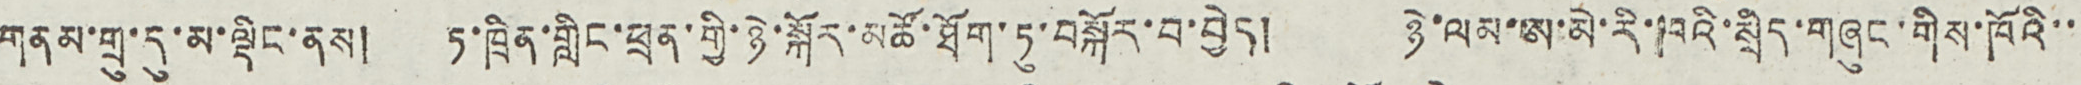གནས་གྲུ་དུ་མ་ལྡིང་ནས། ཏ་ཁྲིན་གླིང་ཕྲན་གྱི་ཉེ་སྐོར་མཚོ་ཐོག་དུ་བསྐོར་བ་བྱེད། ཉེ་ལམ་ཨ་མེ་རི་ཁའི་སྲིད་གཞུང་གིས་ཁོའི་་
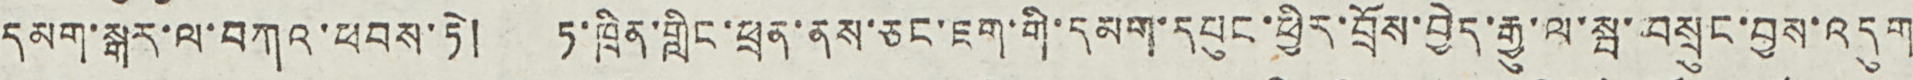དམག་སྒར་ལ་བཀའ་ཕབས་ཏེ། ཏ་ཁྲིན་གླིང་ཕྲན་ནས་ཅང་ཇག་གི་དམག་དཔུང་ཕྱིར་བྲོས་བྱེད་རྒྱུ་ལ་སྦ་བསྲུང་བྱས་འདུག
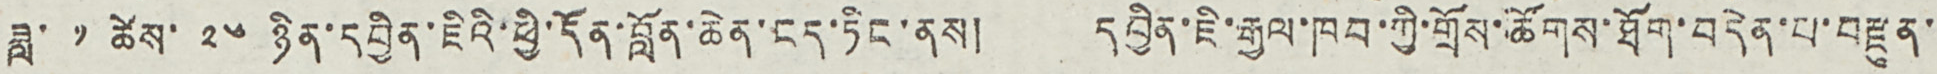ཟླ་ ༤ ཚེས་ ༢༦ ཉིན་དབྱིན་ཇིའི་ཕྱི་དོན་བློན་ཆེན་ངད་ཏིང་ནས། དབྱིན་ཇི་རྒྱལ་ཁབ་ཀྱི་གྲོས་ཚོགས་ཐོག་བདེན་པ་བརྫུན་
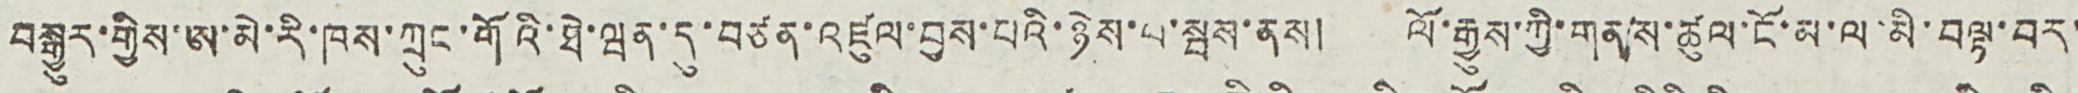བསྒྱུར་གྱིས་ཨ་མེ་རི་ཁས་ཀྲུང་གོའི་ཐེ་ཝན་དུ་བཙན་འཛུལ་བྱས་པའི་ཉེས་པ་སྦས་ནས། ལོ་རྒྱུས་ཀྱི་གནས་ཚུལ་ངོ་མ་ལ་མི་བལྟ་བར་
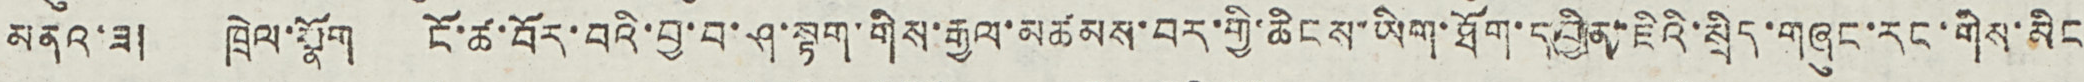མནའ་ཟ། ཁྲེལ་སྣོག ངོ་ཚ་བོར་བའི་བྱ་བ་ཤ་སྟག་གིས་རྒྱལ་མཚམས་བར་གྱི་ཆིངས་ཡིག་ཐོག་དབྱིན་ཇིའི་སྲིད་གཞུང་རང་གིས་མིང
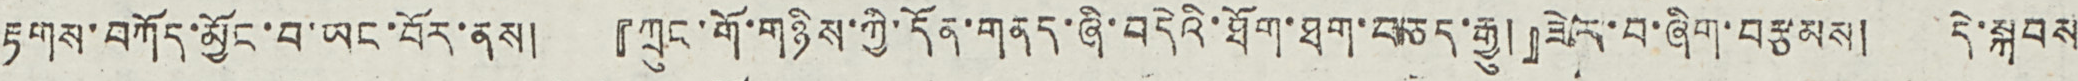རྟགས་བཀོད་མྱོང་བ་ཡང་བོར་ནས། 『ཀྲུང་གོ་གཉིས་ཀྱི་དོན་གནད་ཞི་བདེའི་ཐོག་ཐག་བཅད་རྒྱུ།』ཟེར་བ་ཞིག་བརྩམས། དེ་སྐབས
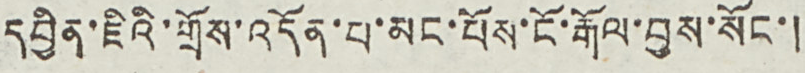དབྱིན་ཇིའི་གྲོས་འདོན་པ་མང་པོས་ངོ་རྒོལ་བྱས་སོང་།
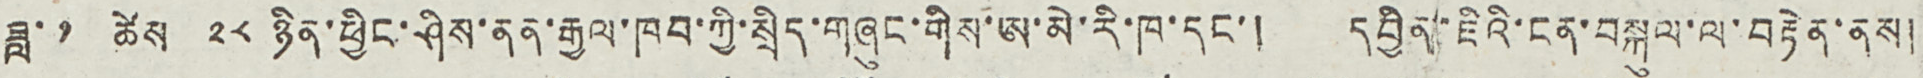ཟླ་ ༡ ཚེས ༢༨ ཉིན་ཕྱིང་ཤིས་ནན་རྒྱལ་ཁབ་ཀྱི་སྲིད་གཞུང་གིས་ཨ་མེ་རི་ཁ་དང་། དབྱིན་ཇིའི་ངན་བསྐུལ་ལ་བརྟེན་ནས།
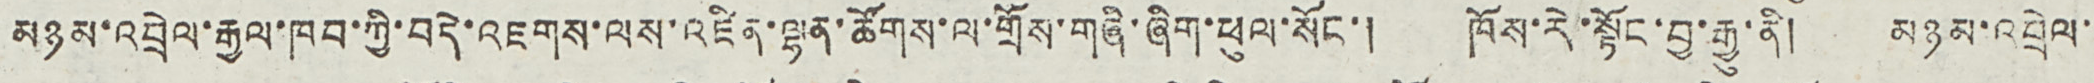མཉམ་འབྲེལ་རྒྱལ་ཁབ་ཀྱི་བདེ་འཇགས་ལས་འཛིན་ལྷན་ཚོགས་ལ་གྲོས་གཞི་ཞིག་ཕུལ་སོང་། ཁོས་རེ་སྟོང་བྱ་རྒྱུ་ནི། མཉམ་འབྲེལ་
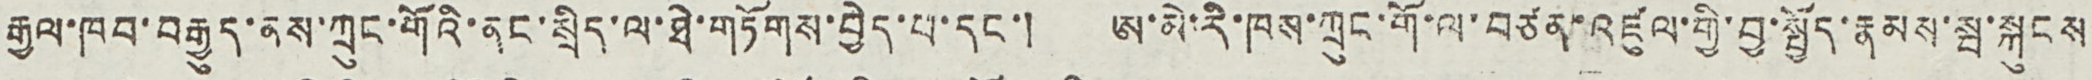རྒྱལ་ཁབ་བརྒྱུད་ནས་ཀྲུང་གོའི་ནང་སྲིད་ལ་ཐེ་གཏོགས་བྱེད་པ་དང་། ཨ་མེ་རི་ཁས་ཀྲུང་གོ་ལ་བཙན་འཛུལ་གྱི་བྱ་སྤྱོད་རྣམས་སྦ་སྐུངས
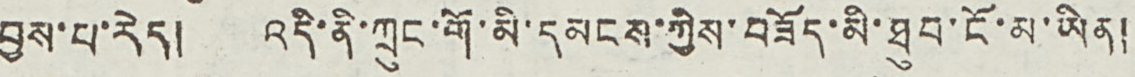བྱས་པ་རེད། འདི་ནི་ཀྲུང་གོ་མི་དམངས་ཀྱིས་བཟོད་མི་ཐུབ་ངོ་མ་ཡིན།
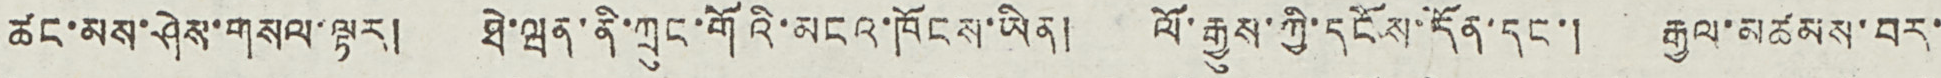ཚང་མས་ཤེས་གསལ་ལྟར། ཐེ་ཝན་ནི་ཀྲུང་གོའི་མངའ་ཁོངས་ཡིན། ལོ་རྒྱུས་ཀྱི་དངོས་དོན་དང་། རྒྱལ་མཚམས་བར་
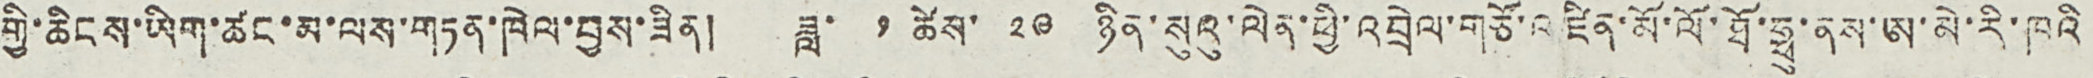གྱི་ཆིངས་ཡིག་ཚང་མ་ལས་གཏན་ཁེལ་བྱས་ཟིན། ཟླ་ ༡ ཚེས་ ༢༩ ཉིན་སུའུ་ལེན་ཕྱི་འབྲེལ་གཙོ་འཛིན་མོ་ལོ་ཐོ་ཧྥུ་ནས་ཨ་མེ་རི་ཁའི
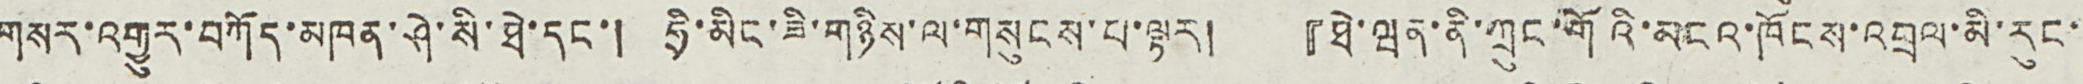གསར་འགྱུར་བཀོད་མཁན་ཤེ་སི་ཐེ་དང་། ཧྲི་མིང་ཟི་གཉིས་ལ་གསུངས་པ་ལྟར། 『ཐེ་ཝན་ནི་ཀྲུང་གོའི་མངའ་ཁོངས་འབྲལ་མི་རུང་
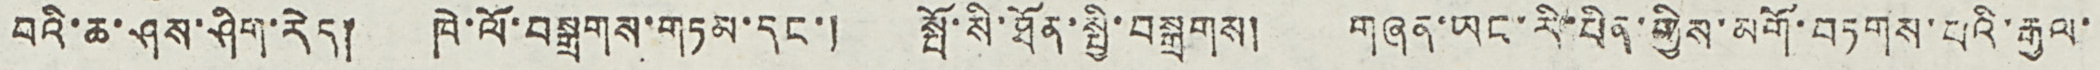བའི་ཆ་ཤས་ཤིག་རེད། ཁེ་ལོ་བསྒྲགས་གཏམ་དང་། སྤོ་སི་ཐོན་སྤྱི་བསྐྲགས། གཞན་ཡང་རི་པིན་གྱིས་མགོ་བཏགས་པའི་རྒྱལ་
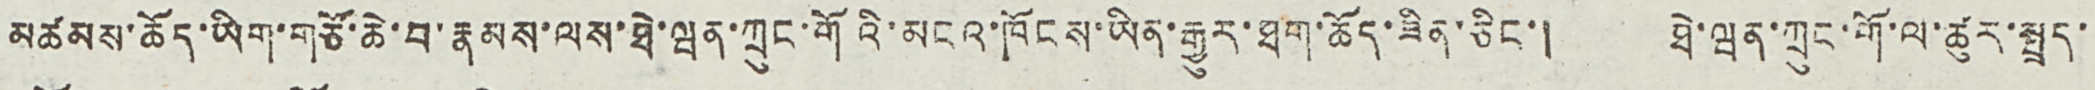མཚམས་ཆོད་ཡིག་གཙོ་ཆེ་བ་རྣམས་ལས་ཐེ་ཝན་ཀྲུང་གོའི་མངའ་ཁོངས་ཡིན་རྒྱུར་ཐག་ཆོད་ཟིན་ཅིང་། ཐེ་ཝན་ཀྲུང་གོ་ལ་ཚུར་སྤྲད་
